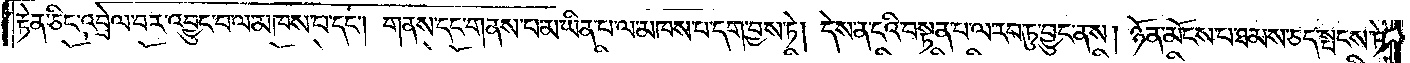རྟེན་ཅིང་འབྲེལ་བར་འབྱུང་བ་ལ་མཁས་པ་དང༌། གནས་དང་གནས་པ་མ་ཡིན་པ་ལ་མཁས་པ་དག་བྱས་ཏེ། དེས་ན་ངའི་བསྟན་པ་ལ་རབ་ཏུ་བྱུང་ནས། ཉོན་མོངས་པ་ཐམས་ཅད་སྤངས་ཏེ་
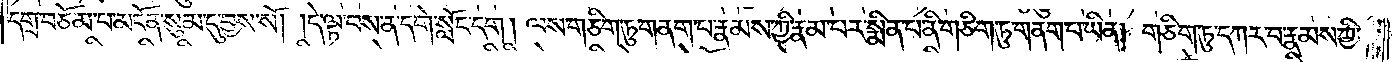དགྲ་བཅོམ་པ་མངོན་སུམ་དུ་བྱས་སོ། །དེ་ལྟ་བས་ན་དགེ་སློང་དག། ལས་གཅིག་ཏུ་གནག་པ་རྣམས་ཀྱི་རྣམ་པར་སྨིན་པ་ནི་གཅིག་ཏུ་གནག་པ་ཡིན། གཅིག་ཏུ་དཀར་བ་རྣམས་ཀྱི་
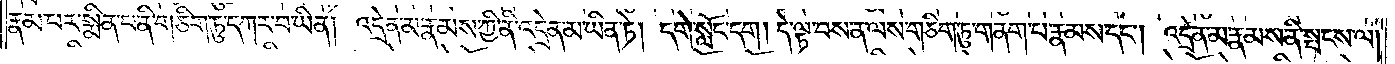རྣམ་པར་སྨིན་པ་ནི་གཅིག་ཏུ་དཀར་བ་ཡིན། འདྲེན་མ་རྣམས་ཀྱི་ནི་འདྲེན་མ་ཡིན་ཏེ། དགེ་སློང་དག། དེ་ལྟ་བས་ན་ལས་གཅིག་ཏུ་གནག་པ་རྣམས་དང༌། འདྲེན་མ་རྣམས་ནི་སྤངས་ལ།
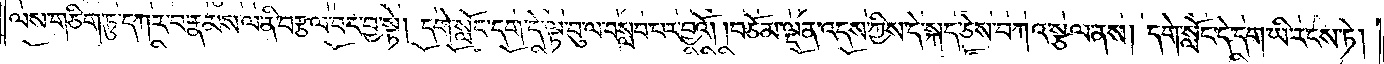ལས་གཅིག་ཏུ་དཀར་བ་རྣམས་ལ་ནི་བརྩལ་བར་བྱ་སྟེ། དགེ་སློང་དག་དེ་ལྟ་བུ་ལ་བསླབ་བར་བྱའོ། །བཅོམ་ལྡན་འདས་ཀྱིས་དེ་སྐད་ཅེས་བཀའ་སྩལ་ནས། དགེ་སློང་དེ་དག་ཡི་རངས་ཏེ།
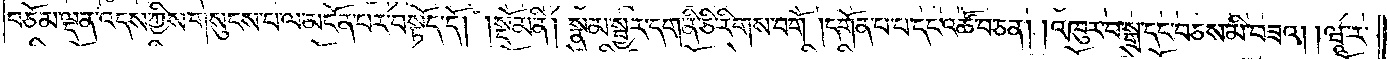བཅོམ་ལྡན་འདས་ཀྱིས་གསུངས་པ་ལ་མངོན་པར་བསྟོད་དོ།    །སྡོམ་ནི། སྣམ་སྦྱར་དག་ནི་ཅི་རིགས་བགོ །དགོན་པ་པ་དང་འཚོ་བ་ཅན། །འཁུར་བ་སྒྲ་དང་བཅས་མི་བཟའ། །ཝཱ་ར་
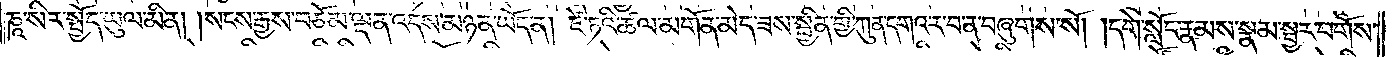ཎཱ་སིར་སྤྱོད་ཡུལ་མིན། །སངས་རྒྱས་བཅོམ་ལྡན་འདས་མཉན་ཡོད་ན། ཛེ་ཏའི་ཚལ་མགོན་མེད་ཟས་སྦྱིན་གྱི་ཀུན་དགའ་ར་བ་ན་བཞུགས་སོ། །དགེ་སློང་རྣམས་སྣམ་སྦྱར་བགོས་
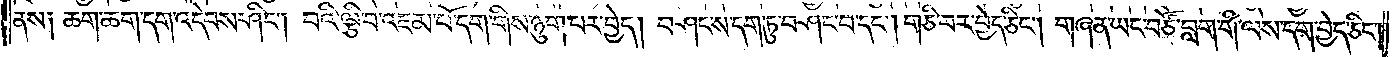ནས། ཆག་ཆག་དག་འདེབས་ཤིང༌། བའི་ལྕིབ་འཇམ་པོ་དག་གིས་ཉུག་པར་བྱེད། བཤང་ས་དག་ཏུ་བཤང་བ་དང༌། གཅི་བར་བྱེད་ཅིང༌། གཞན་ཡང་བཙོ་བླག་གི་ལས་དག་བྱེད་ཅིང་
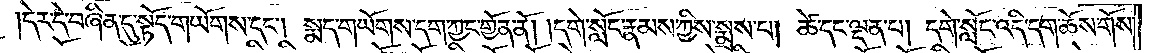དེར་དེ་བཞིན་དུ་སྟོད་གཡོགས་དང༌། སྨད་གཡོགས་དག་ཀྱང་གྱོན་ནོ། །དགེ་སློང་རྣམས་ཀྱིས་སྨྲས་པ། ཚེ་དང་ལྡན་པ། དགེ་སློང་འདི་དག་ཆོས་གོས་
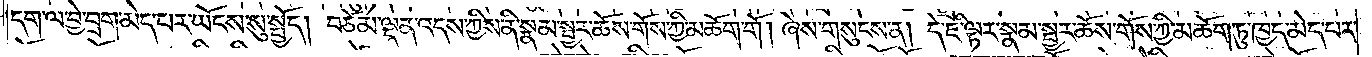དག་ལ་བྱེ་བྲག་མེད་པར་ཡོངས་སུ་སྤྱོད། བཅོམ་ལྡན་འདས་ཀྱིས་ནི་སྣམ་སྦྱར་ཆོས་གོས་ཀྱི་མཆོག་གོ། ཞེས་གསུངས་ན། དེ་ཇི་ལྟར་སྣམ་སྦྱར་ཆོས་གོས་ཀྱི་མཆོག་ཏུ་ཁྱད་མེད་པར་
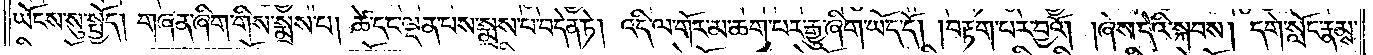ཡོངས་སུ་སྤྱོད། གཞན་ཞིག་གིས་སྨྲས་པ། ཚེ་དང་ལྡན་པས་སྨྲས་པ་བདེན་ཏེ། འདི་ལ་གོར་མ་ཆག་པར་རྒྱུ་ཞིག་ཡོད་དོ། །བརྟག་པར་བྱའོ། །ཞེས་དེའི་སྐབས། དགེ་སློང་རྣམས་
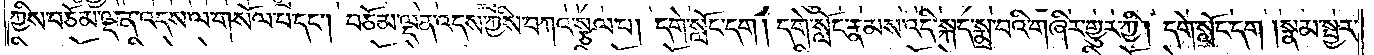ཀྱིས་བཅོམ་ལྡན་འདས་ལ་གསོལ་པ་དང༌། བཅོམ་ལྡན་འདས་ཀྱིས་བཀའ་སྩལ་པ། དགེ་སློང་དག། དགེ་སློང་རྣམས་འདི་སྐད་སྨྲ་བའི་གཞིར་གྱུར་ཀྱི། དགེ་སློང་དག །སྣམ་སྦྱར་
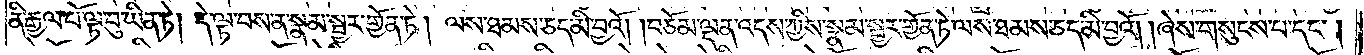ནི་རྒྱལ་པོ་ལྟ་བུ་ཡིན་ཏེ། དེ་ལྟ་བས་ན་སྣམ་སྦྱར་གྱོན་ཏེ། ལས་ཐམས་ཅད་མི་བྱའོ། །བཅོམ་ལྡན་འདས་ཀྱིས་སྣམ་སྦྱར་གྱོན་ཏེ་ལས་ཐམས་ཅད་མི་བྱའོ། །ཞེས་གསུངས་པ་དང༌།
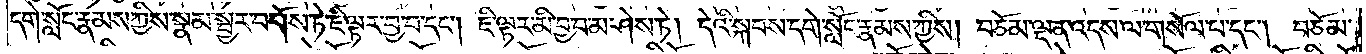དགེ་སློང་རྣམས་ཀྱིས་སྣམ་སྦྱར་བགོས་ཏེ་ཇི་ལྟར་བྱ་བ་དང༌། ཇི་ལྟར་མི་བྱ་བ་མ་ཤེས་ཏེ། དེའི་སྐབས་དགེ་སློང་རྣམས་ཀྱིས། བཅོམ་ལྡན་འདས་ལ་གསོལ་པ་དང༌། བཅོམ་
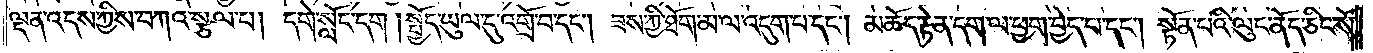ལྡན་འདས་ཀྱིས་བཀའ་སྩལ་པ། དགེ་སློང་དག །སྤྱོད་ཡུལ་དུ་འགྲོ་བ་དང༌། ཟས་ཀྱི་ཐོག་མ་ལ་འདུག་པ་དང༌། མཆོད་རྟེན་དག་ལ་ཕྱག་བྱེད་པ་དང༌། སྟོན་པའི་ལུང་ནོད་ཅིང་སོ་
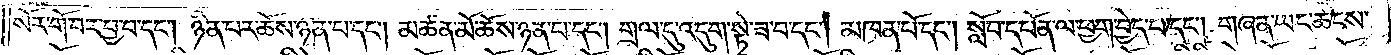སོར་གོ་བར་བྱ་བ་དང༌། ཉིན་པར་ཆོས་ཉན་པ་དང༌། མཚན་མོ་ཆོས་ཉན་པ་དང༌། གྲལ་དུ་འདུག་སྟེ་ཟ་བ་དང༌། མཁན་པོ་དང༌། སློབ་དཔོན་ལ་ཕྱག་བྱེད་པ་དང༌། གཞན་ཡང་ཚངས་
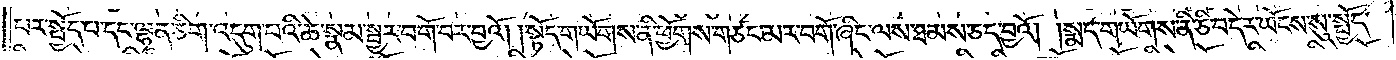པར་སྤྱོད་པ་དང་ལྷན་ཅིག་འདུག་པའི་ཚེ་སྣམ་སྦྱར་བགོ་བར་བྱའོ། །སྟོད་གཡོགས་ནི་ཕྱོགས་གཙང་མར་བགོ་ཞིང་ལས་ཐམས་ཅད་བྱའོ། །སྨད་གཡོགས་ནི་ཅི་བདེར་ཡོངས་སུ་སྤྱོད་
